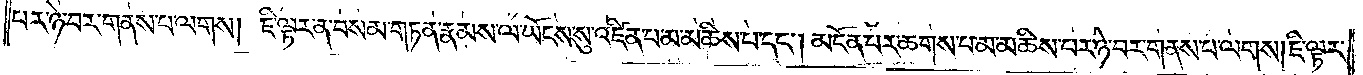པར་ཉེ་བར་གནས་པ་ལགས། ཇི་ལྟར་ན་བསམ་གཏན་རྣམས་ལ་ཡོངས་སུ་འཛིན་པ་མ་མཆིས་པ་དང༌། མངོན་པར་ཆགས་པ་མ་མཆིས་པར་ཉེ་བར་གནས་པ་ལགས། ཇི་ལྟར་
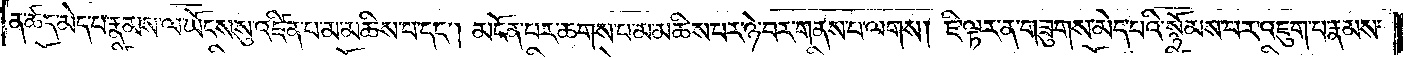ན་ཚད་མེད་པ་རྣམས་ལ་ཡོངས་སུ་འཛིན་པ་མ་མཆིས་པ་དང༌། མངོན་པར་ཆགས་པ་མ་མཆིས་པར་ཉེ་བར་གནས་པ་ལགས། ཇི་ལྟར་ན་གཟུགས་མེད་པའི་སྙོམས་པར་འཇུག་པ་རྣམས་
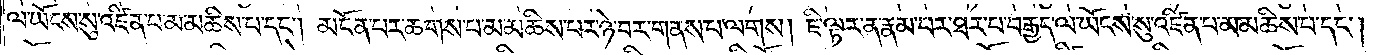ལ་ཡོངས་སུ་འཛིན་པ་མ་མཆིས་པ་དང༌། མངོན་པར་ཆགས་པ་མ་མཆིས་པར་ཉེ་བར་གནས་པ་ལགས། ཇི་ལྟར་ན་རྣམ་པར་ཐར་པ་བརྒྱད་ལ་ཡོངས་སུ་འཛིན་པ་མ་མཆིས་པ་དང༌།
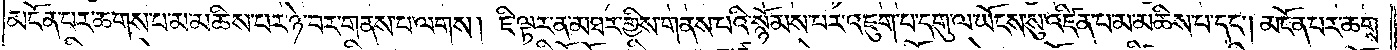མངོན་པར་ཆགས་པ་མ་མཆིས་པར་ཉེ་བར་གནས་པ་ལགས། ཇི་ལྟར་ན་མཐར་གྱིས་གནས་པའི་སྙོམས་པར་འཇུག་པ་དགུ་ལ་ཡོངས་སུ་འཛིན་པ་མ་མཆིས་པ་དང༌། མངོན་པར་ཆགས་
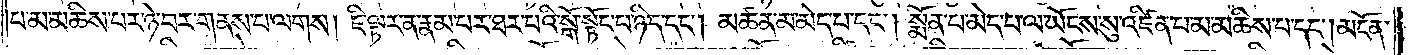པ་མ་མཆིས་པར་ཉེ་བར་གནས་པ་ལགས། ཇི་ལྟར་ན་རྣམ་པར་ཐར་པའི་སྒོ་སྟོང་པ་ཉིད་དང༌། མཚན་མ་མེད་པ་དང༌། སྨོན་པ་མེད་པ་ལ་ཡོངས་སུ་འཛིན་པ་མ་མཆིས་པ་དང༌། མངོན་
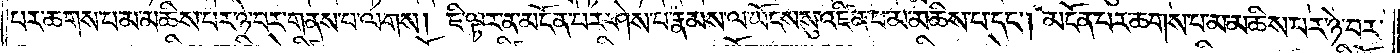པར་ཆགས་པ་མ་མཆིས་པར་ཉེ་བར་གནས་པ་ལགས། ཇི་ལྟར་ན་མངོན་པར་ཤེས་པ་རྣམས་ལ་ཡོངས་སུ་འཛིན་པ་མ་མཆིས་པ་དང༌། མངོན་པར་ཆགས་པ་མ་མཆིས་པར་ཉེ་བར་
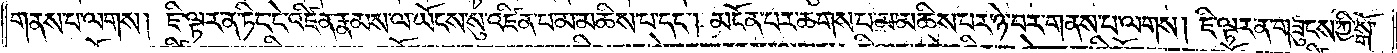གནས་པ་ལགས། ཇི་ལྟར་ན་ཏིང་ངེ་འཛིན་རྣམས་ལ་ཡོངས་སུ་འཛིན་པ་མ་མཆིས་པ་དང༌། མངོན་པར་ཆགས་པ་མ་མཆིས་པར་ཉེ་བར་གནས་པ་ལགས། ཇི་ལྟར་ན་གཟུངས་ཀྱི་སྒོ་
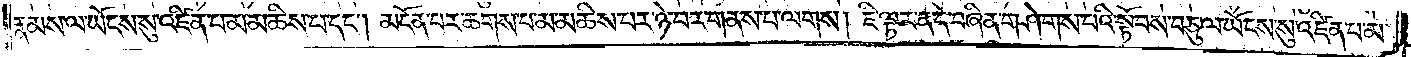རྣམས་ལ་ཡོངས་སུ་འཛིན་པ་མ་མཆིས་པ་དང༌། མངོན་པར་ཆགས་པ་མ་མཆིས་པར་ཉེ་བར་གནས་པ་ལགས། ཇི་ལྟར་ན་དེ་བཞིན་གཤེགས་པའི་སྟོབས་བཅུ་ལ་ཡོངས་སུ་འཛིན་པ་མ་
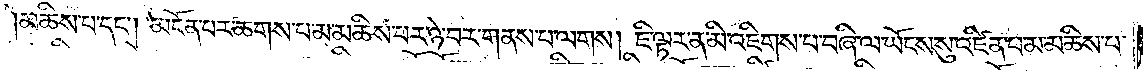མཆིས་པ་དང༌། མངོན་པར་ཆགས་པ་མ་མཆིས་པར་ཉེ་བར་གནས་པ་ལགས། ཇི་ལྟར་ན་མི་འཇིགས་པ་བཞི་ལ་ཡོངས་སུ་འཛིན་པ་མ་མཆིས་པ་
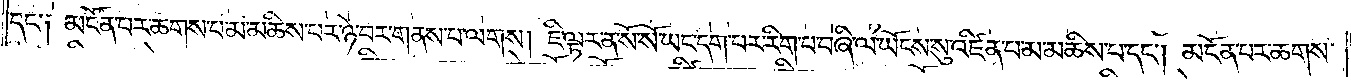དང༌༑ མངོན་པར་ཆགས་པ་མ་མཆིས་པར་ཉེ་བར་གནས་པ་ལགས། ཇི་ལྟར་ན་སོ་སོ་ཡང་དག་པར་རིག་པ་བཞི་ལ་ཡོངས་སུ་འཛིན་པ་མ་མཆིས་པ་དང༌། མངོན་པར་ཆགས་
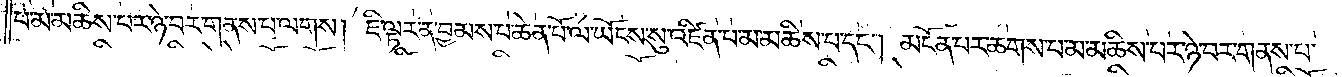པ་མ་མཆིས་པར་ཉེ་བར་གནས་པ་ལགས། ཇི་ལྟར་ན་བྱམས་པ་ཆེན་པོ་ལ་ཡོངས་སུ་འཛིན་པ་མ་མཆིས་པ་དང༌། མངོན་པར་ཆགས་པ་མ་མཆིས་པར་ཉེ་བར་གནས་པ་
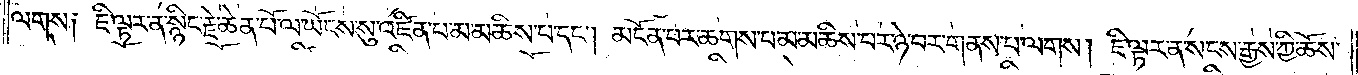ལགས༑ ཇི་ལྟར་ན་སྙིང་རྗེ་ཆེན་པོ་ལ་ཡོངས་སུ་འཛིན་པ་མ་མཆིས་པ་དང༌། མངོན་པར་ཆགས་པ་མ་མཆིས་པར་ཉེ་བར་གནས་པ་ལགས། ཇི་ལྟར་ན་སངས་རྒྱས་ཀྱི་ཆོས་
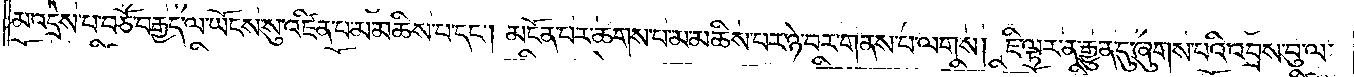མ་འདྲེས་པ་བཅོ་བརྒྱད་ལ་ཡོངས་སུ་འཛིན་པ་མ་མཆིས་པ་དང༌། མངོན་པར་ཆགས་པ་མ་མཆིས་པར་ཉེ་བར་གནས་པ་ལགས། ཇི་ལྟར་ན་རྒྱུན་དུ་ཞུགས་པའི་འབྲས་བུ་ལ་
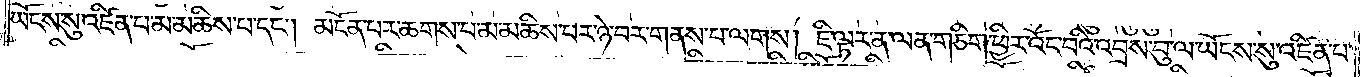ཡོངས་སུ་འཛིན་པ་མ་མཆིས་པ་དང༌། མངོན་པར་ཆགས་པ་མ་མཆིས་པར་ཉེ་བར་གནས་པ་ལགས། ཇི་ལྟར་ན་ལན་གཅིག་ཕྱིར་འོང་བའི་འབྲས་བུ་ལ་ཡོངས་སུ་འཛིན་པ་
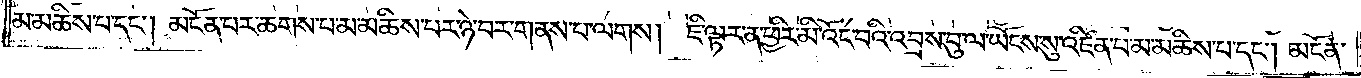མ་མཆིས་པ་དང༌། མངོན་པར་ཆགས་པ་མ་མཆིས་པར་ཉེ་བར་གནས་པ་ལགས། ཇི་ལྟར་ན་ཕྱིར་མི་འོང་བའི་འབྲས་བུ་ལ་ཡོངས་སུ་འཛིན་པ་མ་མཆིས་པ་དང༌། མངོན་
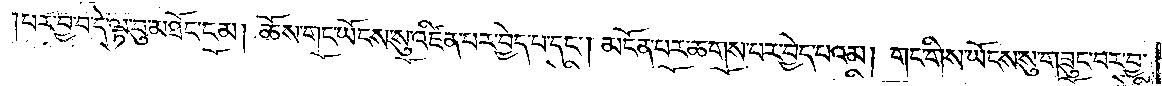པར་བྱ་བ་དེ་ལྟ་བུ་མཐོང་ངམ། ཆོས་གང་ཡོངས་སུ་འཛིན་པར་བྱེད་པ་དང༌། མངོན་པར་ཆགས་པར་བྱེད་པའམ། གང་གིས་ཡོངས་སུ་གཟུང་བར་བྱ་
